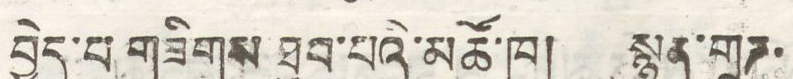བྱེད་པ གཟིགས་ཐུབ་པའི་མཚོ་ཁ། སྙན་གྲཌ་
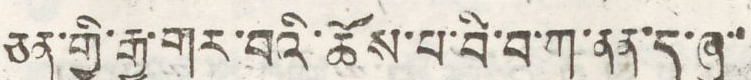ཅན་གྱི་རྒྱ་གར་བའི་ཚོས་པ་བི་བ་ཀ་ནན་ད་ཞུ་
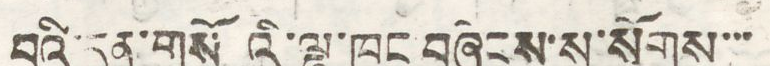བའི་དྲན་གསོའི་ལྷ་ཁང་བཞེངས་ས་སོགས་་་
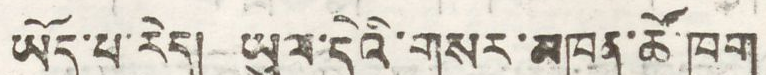ཡོད་པ་རེད། ཡུལ་དེའི་གསར་མཁན་ཚོ་ཁག
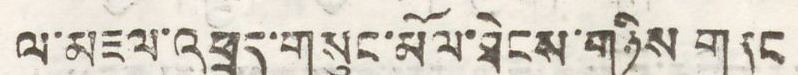ལ་མཇལ་འཕྲད་གསུང་མོལ་ཐེངས་གཉིས གནང
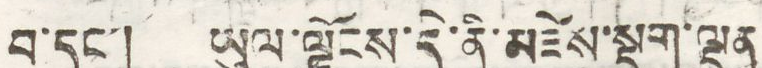བ་དང་། ཡུལ་ལྗོངས་དེ་ནི་མཛེས་སྡུག་ལྡན
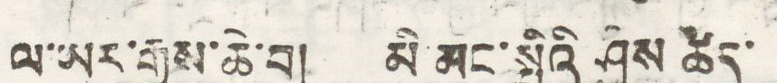པ་ཡར་རྒྱས་ཆེ་བ། མི་མང་སྤྱིའི་ཤེས་ཚད་
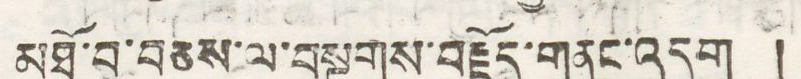མཐོ་བ་བཅས་ལ་བསྔགས་བརྗོད་གནང་འདུག །
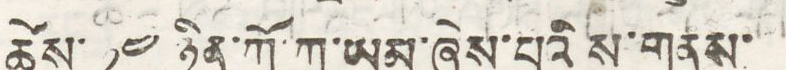ཚེས་ ༡༤ ཉིན་ཀོ་ཀྲ་ཡམ་ཞེས་པའི་ས་གནས་
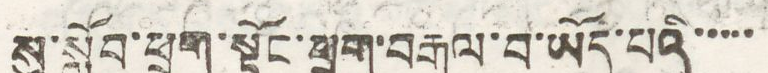སུ་སློབ་ཕྲུག་སྟོང་ཕྲག་བརྒལ་བ་ཡོད་པའི་་་་་
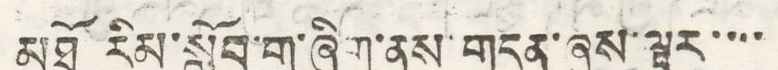མཐོ རིམ་སློབ་གྲྭ་ཞིག་ནས་གདན་ཞུས་ལྟར་་་་
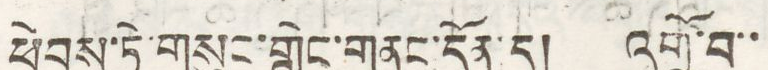ཕེབས་ཏེ་གསུང་གླེང་གང་དོན་དུ། འགྲོ་བ་་
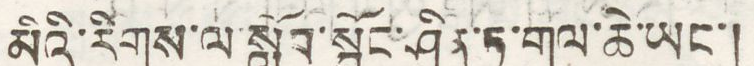མིའི་རིགས་ལ་སློབ་སྦྱོང་ཤིན་ཏུ་གལ་ཆེ་ཡང་།
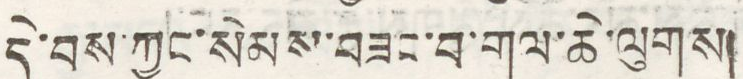དེ་བས་ཀྱང་སེམས་བཟང་བ་གལ་ཆེ་ལུགས།
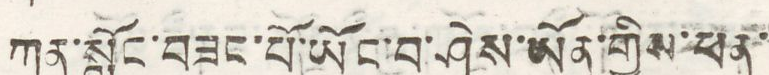ཀུན་སློང་བཟང་པོ་ཡོང་བ་ཤེས་ཡོན་གྱིས་ཕན་
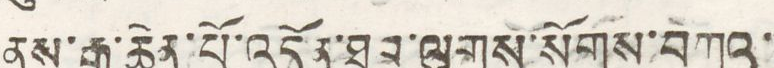ནུས་རྒྱ་ཆེན་པོ་འདོན་ཐུབ་ལུགས་སོགས་བཀའ་
